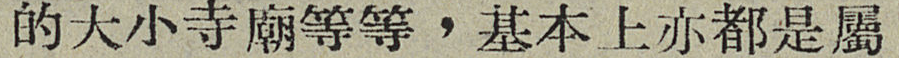的大小寺廟等等，基本上亦都是屬
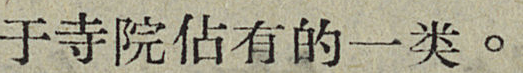于寺院佔有的一类。
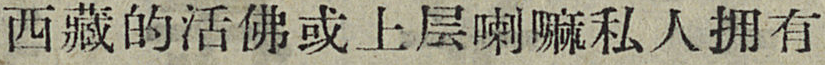西藏的活佛或上层喇嘛私人拥有
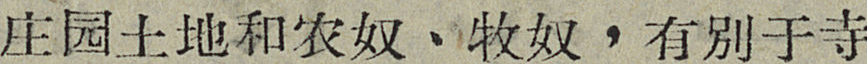庄园土地和农奴、牧奴，有别于寺
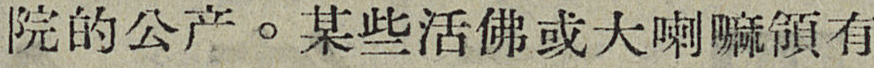院的共产。某些活佛或大喇嘛領有
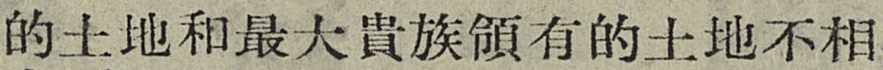的土地和最大貴族領有的土地不相
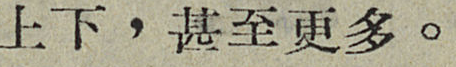上下，甚至更多。
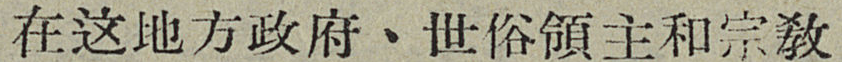在这地方政府、世俗領主和宗敎
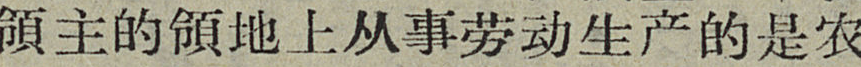領主的領地上从事劳动生产的是农
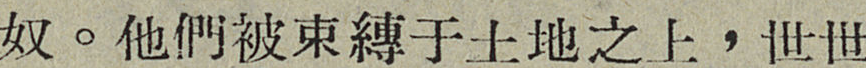奴。他們被束縛于土地之上，世世
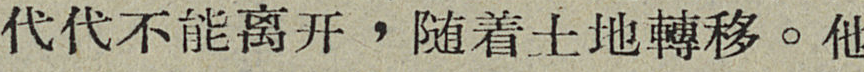代代不能离开，随着土地轉移。他
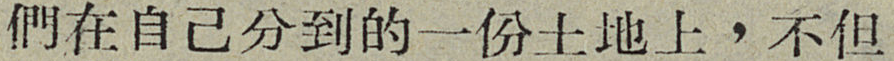們在自己分到的一份土地上，不但
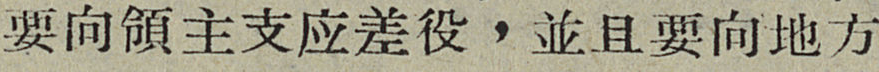要向領主支应差役，並且要向地方
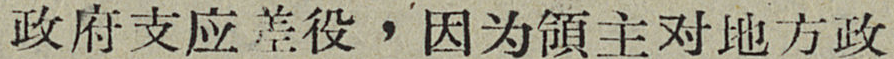政府支应差役，因为領主对地方政
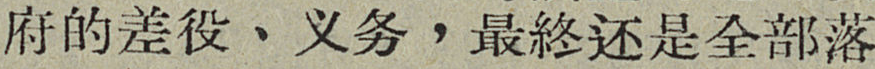府的差役、义务，最終还是全部落
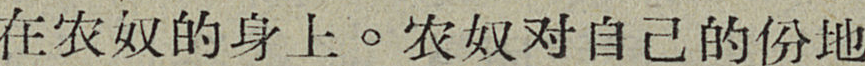在农奴的身上。农奴对自己的份地
